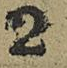2
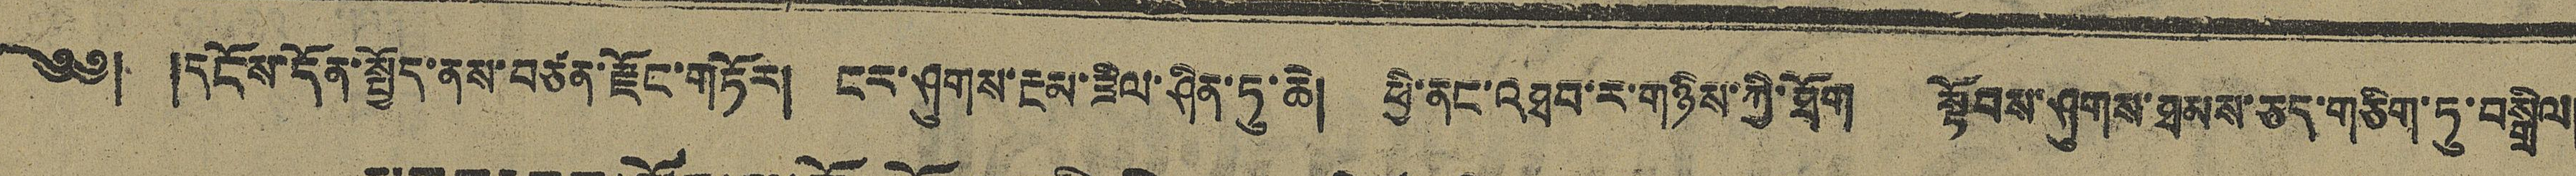༄༅། །དངོས་དོན་སྤྱོད་ནས་བཙན་རྫོང་གཏོར། ངར་ཤུགས་རྔམ་རིལ་ཤིན་ཏུ་ཆེ། ཕྱི་ནང་འཐབ་ར་གཉིས་ཀྱི་ཐོག སྟོབས་ཤུགས་ཐམས་ཅད་གཅིག་ཏུ་བསྒྲིལ།
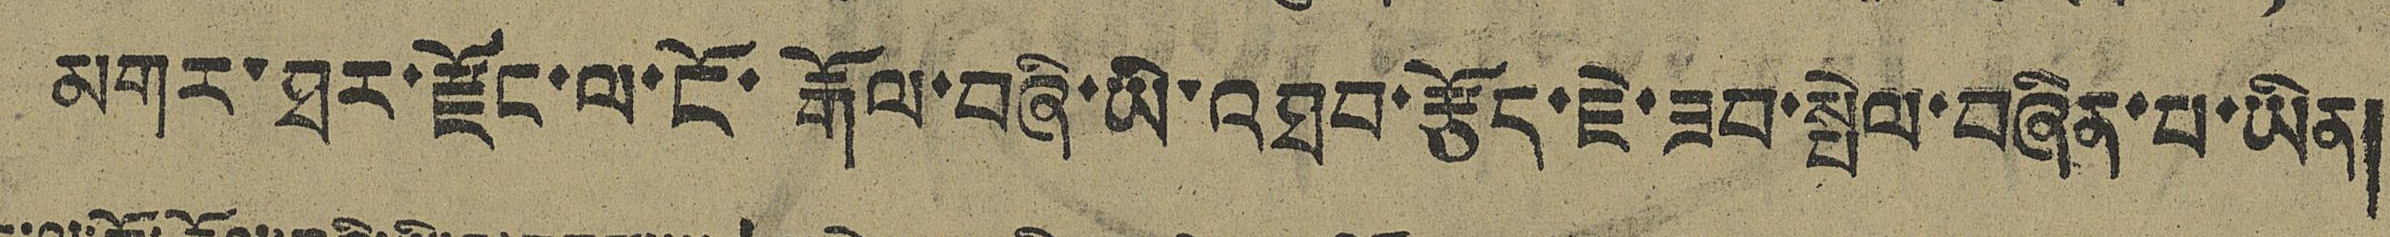མགར་ཐར་རྫོང་ལ་ངོ་རྒོལ་བཞི་ཡི་འཐབ་རྩོད་ཇེ་ཟབ་སྤེལ་བཞིན་པ་ཡིན།
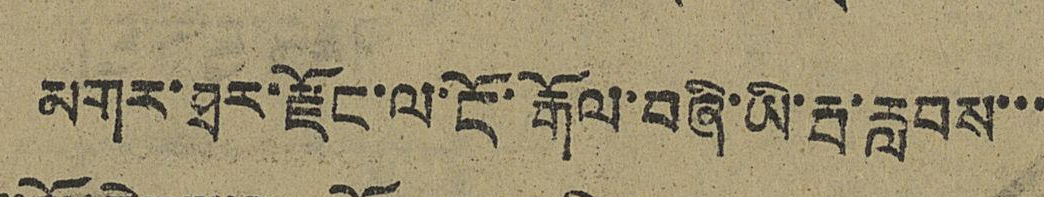མགར་ཐར་རྫོང་ལ་ངོ་རྒོལ་བཞི་མི་རྦ་རླབས་་་
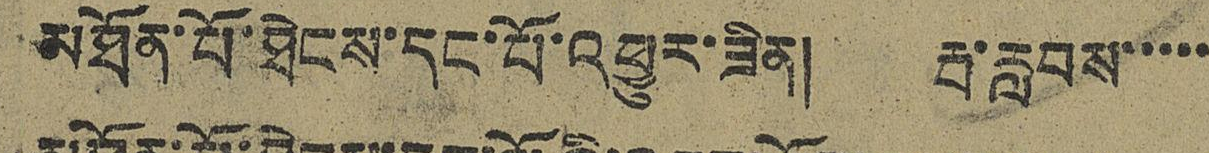མཐོན་པོ་ཐེངས་དང་པོ་འཕྱུར་ཟིན། རྦ་རླབས་་་་་
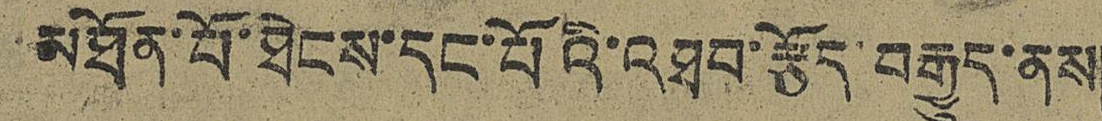མཐོན་པོ་ཐེངས་དང་པོའི་འཐབ་རྩོད་བརྒྱུད་ནས།
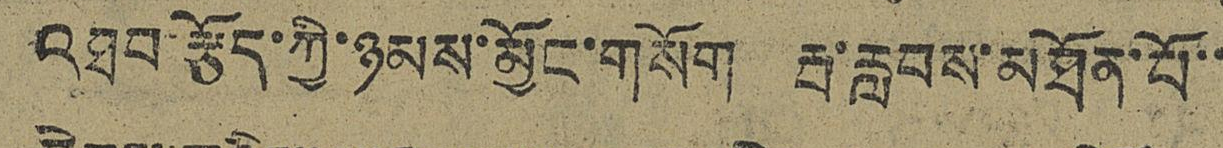འཐབ་རྩོད་ཀྱི་ཉམས་མྱོང་གསོག རྦ་རླབས་མཐོན་པོ་་
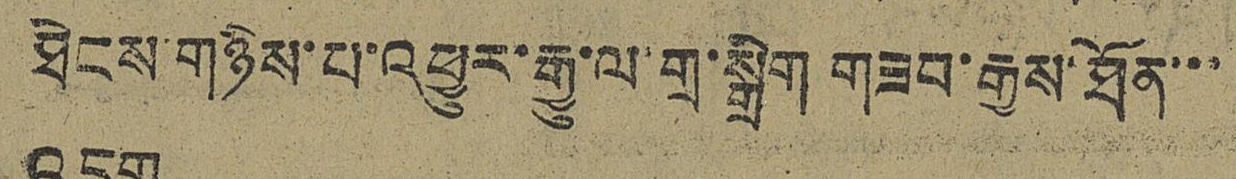ཐེངས་གཉིས་པ་འཕྱུར་རྒྱུལ་གྲ་སྒྲིག གཟབ་རྒྱས་ཐོན་་་
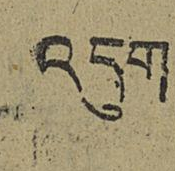འདུག
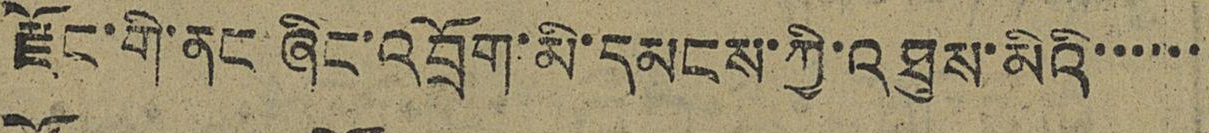རྫོང་གི་ནང་ཞིང་འབྲོག་མི་དམངས་ཀྱི་འཐུས་མིའི་་་་་་
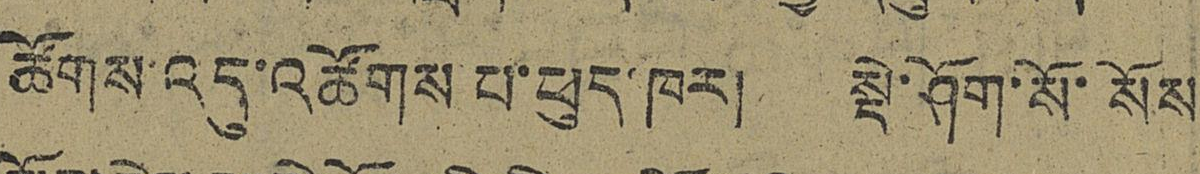ཚོགས་འདུ་འཚོགས པ་ཕུད་ཁར། སྡེ་ཤོག་སོ་སོས
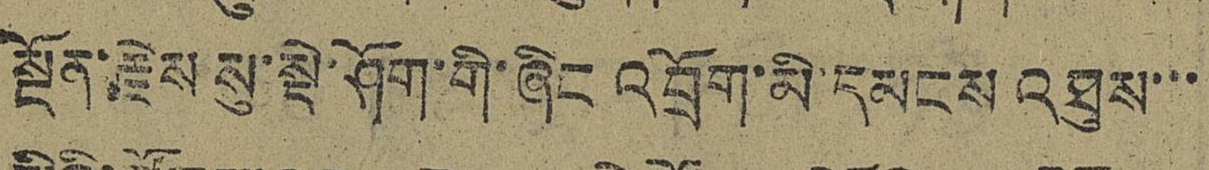སྔོན་རྗེས སུ་སྡེ་ཤོག་གི་ཞིང འབྲོག་མི་དམངས འཐུས་་་
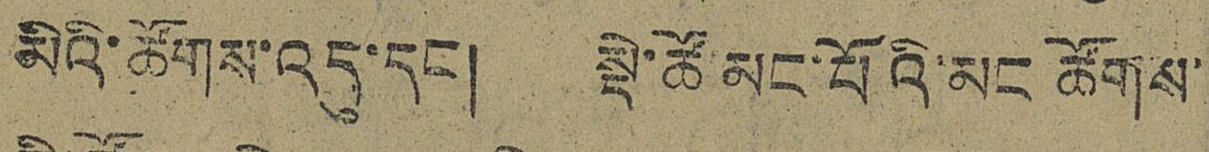མིའི་ཚོགས་འདུ་དང་། སྡེ་ཚོ་མང་པོའི་མང ཚོགས
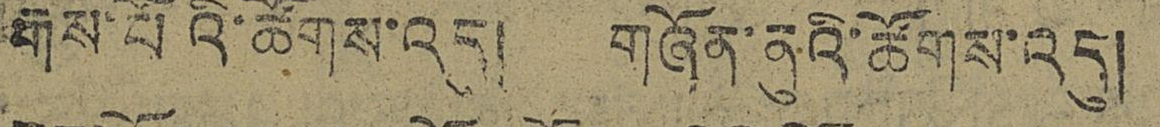རྒས་པོའི་ཚོགས་འདུ། གཞོན་ནུའི་ཚོགས་འདུ།
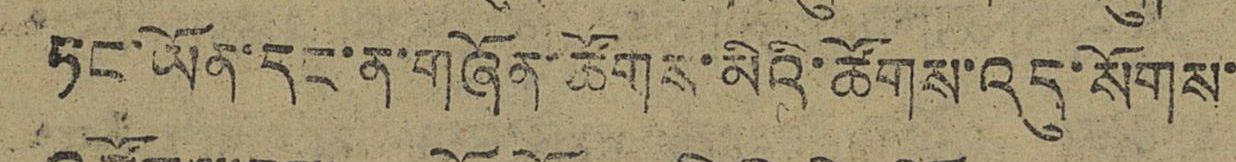ཏང་ཡོན་དང་ན་གཞོན་ཚོགས་མིའི་ཚོགས་འདུ་སོགས་
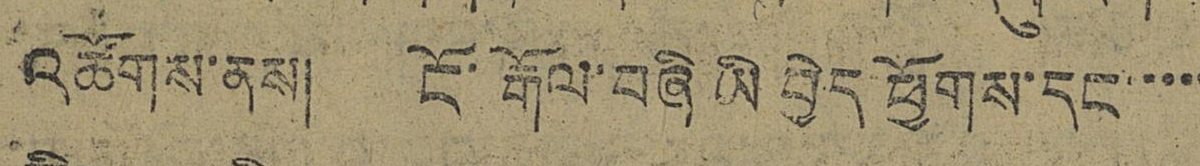འཚོགས་ནས། ངོ་རྒོལ་བཞི ཡི བྱེད ཕྱོགས་དང་་་་
